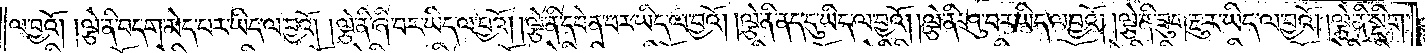ལ་བྱའོ། །ལྕེ་ནི་བདག་མེད་པར་ཡིད་ལ་བྱའོ། །ལྕེ་ནི་ཞི་བར་ཡིད་ལ་བྱའོ། །ལྕེ་ནི་དབེན་པར་ཡིད་ལ་བྱའོ། །ལྕེ་ནི་ནད་དུ་ཡིད་ལ་བྱའོ། །ལྕེ་ནི་ཤུ་བར་ཡིད་ལ་བྱའོ། །ལྕེ་ནི་ཟུག་རྔུར་ཡིད་ལ་བྱའོ། །ལྕེ་ནི་སྡིག་
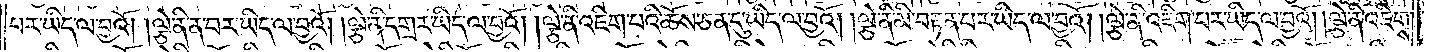པར་ཡིད་ལ་བྱའོ། །ལྕེ་ནི་ན་བར་ཡིད་ལ་བྱའོ། །ལྕེ་ནི་དགྲར་ཡིད་ལ་བྱའོ། །ལྕེ་ནི་འཇིག་པའི་ཆོས་ཅན་དུ་ཡིད་ལ་བྱའོ། །ལྕེ་ནི་མི་བརྟན་པར་ཡིད་ལ་བྱའོ། །ལྕེ་ནི་འཇིག་པར་ཡིད་ལ་བྱའོ། །ལྕེ་ནི་འཇིགས་
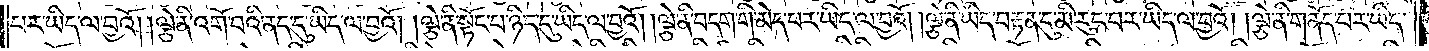པར་ཡིད་ལ་བྱའོ། །ལྕེ་ནི་འགོ་བའི་ནད་དུ་ཡིད་ལ་བྱའོ། །ལྕེ་ནི་སྟོང་པ་ཉིད་དུ་ཡིད་ལ་བྱའོ། །ལྕེ་ནི་བདག་གི་མེད་པར་ཡིད་ལ་བྱའོ། །ལྕེ་ནི་ཡིད་བརྟེན་དུ་མི་རུང་བར་ཡིད་ལ་བྱའོ། །ལྕེ་ནི་གནོད་པར་ཡིད་
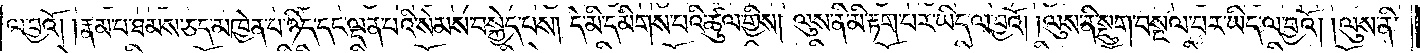ལ་བྱའོ། །རྣམ་པ་ཐམས་ཅད་མཁྱེན་པ་ཉིད་དང་ལྡན་པའི་སེམས་བསྐྱེད་པས། དེ་མི་དམིགས་པའི་ཚུལ་གྱིས། ལུས་ནི་མི་རྟག་པར་ཡིད་ལ་བྱའོ། །ལུས་ནི་སྡུག་བསྔལ་བར་ཡིད་ལ་བྱའོ། །ལུས་ནི་
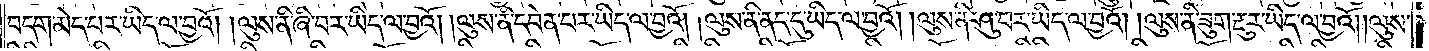བདག་མེད་པར་ཡིད་ལ་བྱའོ། །ལུས་ནི་ཞི་བར་ཡིད་ལ་བྱའོ། །ལུས་ནི་དབེན་པར་ཡིད་ལ་བྱའོ། །ལུས་ནི་ནད་དུ་ཡིད་ལ་བྱའོ། །ལུས་ནི་ཤུ་བར་ཡིད་ལ་བྱའོ། །ལུས་ནི་ཟུག་རྔུར་ཡིད་ལ་བྱའོ། །ལུས་
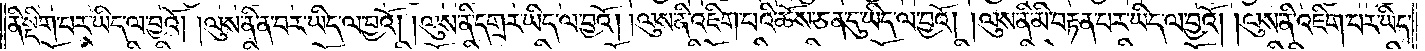ནི་སྡིག་པར་ཡིད་ལ་བྱའོ། །ལུས་ནི་ན་བར་ཡིད་ལ་བྱའོ། །ལུས་ནི་དགྲར་ཡིད་ལ་བྱའོ། །ལུས་ནི་འཇིག་པའི་ཆོས་ཅན་དུ་ཡིད་ལ་བྱའོ། །ལུས་ནི་མི་བརྟན་པར་ཡིད་ལ་བྱའོ། །ལུས་ནི་འཇིག་པར་ཡིད་
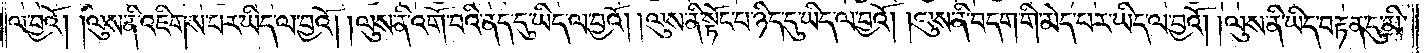ལ་བྱའོ། །ལུས་ནི་འཇིགས་པར་ཡིད་ལ་བྱའོ། །ལུས་ནི་འགོ་བའི་ནད་དུ་ཡིད་ལ་བྱའོ། །ལུས་ནི་སྟོང་པ་ཉིད་དུ་ཡིད་ལ་བྱའོ། །ལུས་ནི་བདག་གི་མེད་པར་ཡིད་ལ་བྱའོ། །ལུས་ནི་ཡིད་བརྟན་དུ་མི་
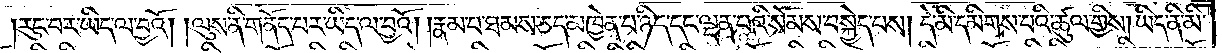རུང་བར་ཡིད་ལ་བྱའོ། །ལུས་ནི་གནོད་པར་ཡིད་ལ་བྱའོ། །རྣམ་པ་ཐམས་ཅད་མཁྱེན་པ་ཉིད་དང་ལྡན་པའི་སེམས་བསྐྱེད་པས། དེ་མི་དམིགས་པའི་ཚུལ་གྱིས། ཡིད་ནི་མི་
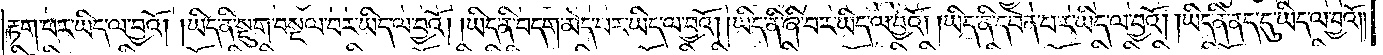རྟག་པར་ཡིད་ལ་བྱའོ། །ཡིད་ནི་སྡུག་བསྔལ་བར་ཡིད་ལ་བྱའོ། །ཡིད་ནི་བདག་མེད་པར་ཡིད་ལ་བྱའོ། །ཡིད་ནི་ཞི་བར་ཡིད་ལ་བྱའོ། །ཡིད་ནི་དབེན་པར་ཡིད་ལ་བྱའོ། །ཡིད་ནི་ནད་དུ་ཡིད་ལ་བྱའོ། །
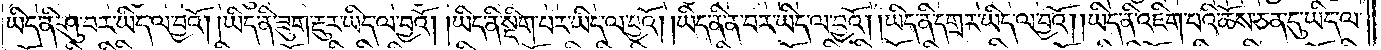ཡིད་ནི་ཤུ་བར་ཡིད་ལ་བྱའོ། །ཡིད་ནི་ཟུག་རྔུར་ཡིད་ལ་བྱའོ། །ཡིད་ནི་སྡིག་པར་ཡིད་ལ་བྱའོ། །ཡིད་ནི་ན་བར་ཡིད་ལ་བྱའོ། །ཡིད་ནི་དགྲར་ཡིད་ལ་བྱའོ། །ཡིད་ནི་འཇིག་པའི་ཆོས་ཅན་དུ་ཡིད་ལ་
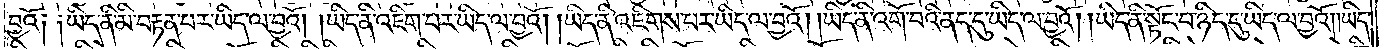བྱའོ༏ ༏ཡིད་ནི་མི་བརྟན་པར་ཡིད་ལ་བྱའོ། །ཡིད་ནི་འཇིག་པར་ཡིད་ལ་བྱའོ། །ཡིད་ནི་ནི་འཇིགས་པར་ཡིད་ལ་བྱའོ། །ཡིད་ནི་འགོ་བའི་ནད་དུ་ཡིད་ལ་བྱའོ། །ཡིད་ནི་སྟོང་པ་ཉིད་དུ་ཡིད་ལ་བྱའོ། །ཡིད་
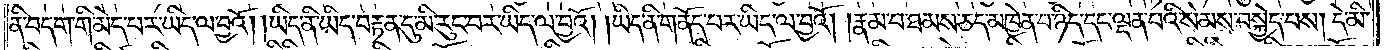ནི་བདག་གི་མེད་པར་ཡིད་ལ་བྱའོ། །ཡིད་ནི་ཡིད་བརྟན་དུ་མི་རུང་བར་ཡིད་ལ་བྱའོ། །ཡིད་ནི་གནོད་པར་ཡིད་ལ་བྱའོ། །རྣམ་པ་ཐམས་ཅད་མཁྱེན་པ་ཉིད་དང་ལྡན་པའི་སེམས་བསྐྱེད་པས། དེ་མི་
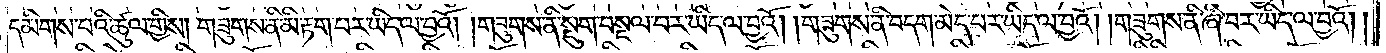དམིགས་པའི་ཚུལ་གྱིས། གཟུགས་ནི་མི་རྟག་པར་ཡིད་ལ་བྱའོ། །གཟུགས་ནི་སྡུག་བསྔལ་བར་ཡིད་ལ་བྱའོ། །གཟུགས་ནི་བདག་མེད་པར་ཡིད་ལ་བྱའོ། །གཟུགས་ནི་ཞི་བར་ཡིད་ལ་བྱའོ། །
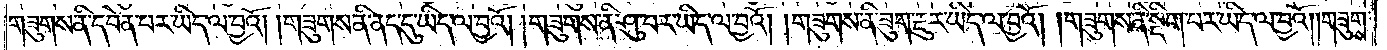གཟུགས་ནི་དབེན་པར་ཡིད་ལ་བྱའོ། །གཟུགས་ནི་ནད་དུ་ཡིད་ལ་བྱའོ། །གཟུགས་ནི་ཤུ་བར་ཡིད་ལ་བྱའོ། །གཟུགས་ནི་ཟུག་རྔུར་ཡིད་ལ་བྱའོ། །གཟུགས་ནི་སྡིག་པར་ཡིད་ལ་བྱའོ། །གཟུགས་
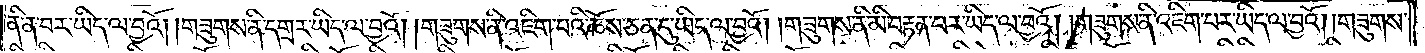ནི་ན་བར་ཡིད་ལ་བྱའོ། །གཟུགས་ནི་དགྲར་ཡིད་ལ་བྱའོ། །གཟུགས་ནི་འཇིག་པའི་ཆོས་ཅན་དུ་ཡིད་ལ་བྱའོ། །གཟུགས་ནི་མི་བརྟན་པར་ཡིད་ལ་བྱའོ། །གཟུགས་ནི་འཇིག་པར་ཡིད་ལ་བྱའོ། །གཟུགས་
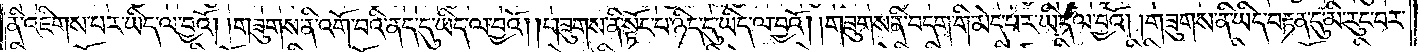ནི་འཇིགས་པར་ཡིད་ལ་བྱའོ། །གཟུགས་ནི་འགོ་བའི་ནད་དུ་ཡིད་ལ་བྱའོ། །གཟུགས་ནི་སྟོང་པ་ཉིད་དུ་ཡིད་ལ་བྱའོ། །གཟུགས་ནི་བདག་གི་མེད་པར་ཡིད་ལ་བྱའོ། །གཟུགས་ནི་ཡིད་བརྟན་དུ་མི་རུང་བར་
